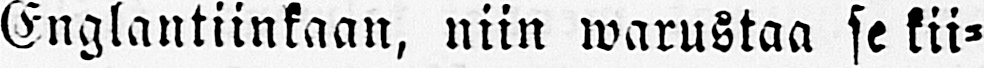Englantiinkaan, niin warustaa se kii-
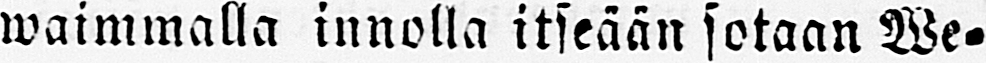waimmalla innolla itseään sotaan We-
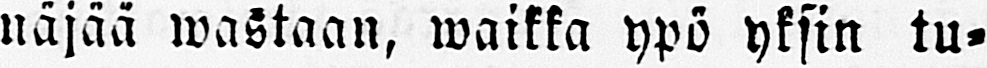näjää wastaan, waikka ypö yksin tu-
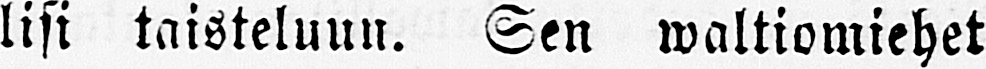lisi taisteluun. Sen waltiomiehet
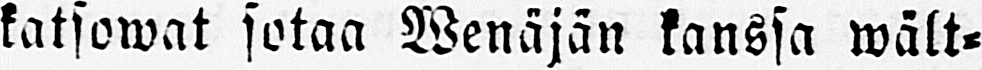katsowat sotaa Wenäjän kanssa wält-
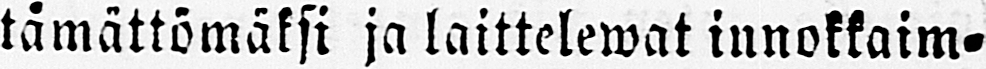tämättömäksi ja laittelewat innokkaim-
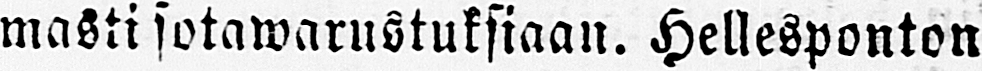masti sotawarustuksiaan. Hellesponton
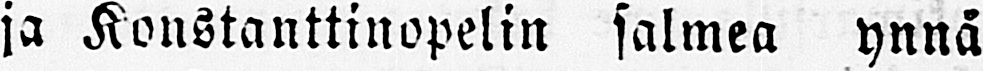ja Konstanttinopelin salmea ynnä
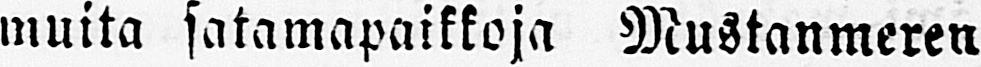muita satamapaikkoja Mustanmeren
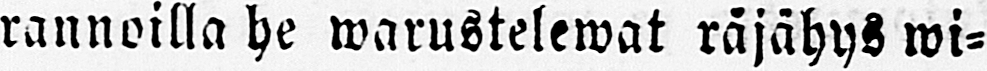rannoilla he warustelewat räjähys wi-
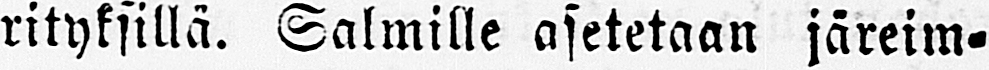rityksillä. Salmille asetetaan järeim-
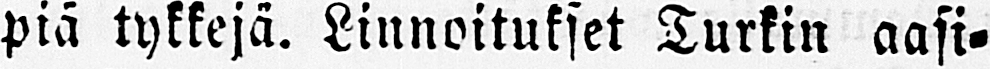piä tykkejä. Linnoitukset Turkin aasi-
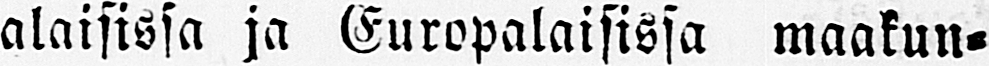alaisissa ja Europalaisissa maakun-
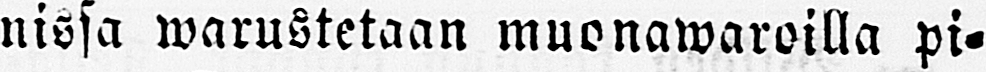nissa warustetaan muonawaroilla pi-
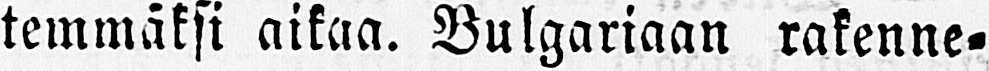temmäksi aikaa. Bulgariaan rakenne-
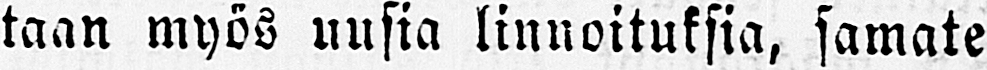taan myös uusia linnoituksia, samate
